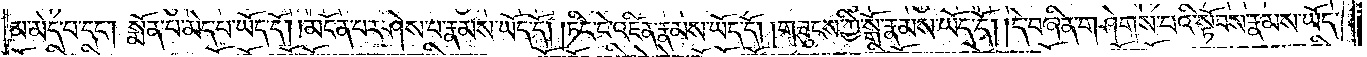མ་མེད་པ་དང༌། སྨོན་པ་མེད་པ་ཡོད་དོ། །མངོན་པར་ཤེས་པ་རྣམས་ཡོད་དོ། །ཏིང་ངེ་འཛིན་རྣམས་ཡོད་དོ། །གཟུངས་ཀྱི་སྒོ་རྣམས་ཡོད་དོ། །དེ་བཞིན་གཤེགས་པའི་སྟོབས་རྣམས་ཡོད་
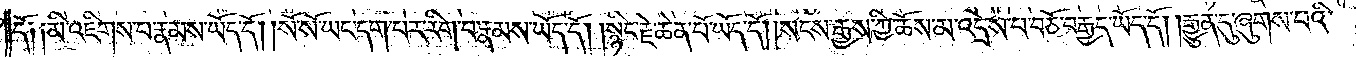དོ༑ ༑མི་འཇིགས་པ་རྣམས་ཡོད་དོ། །སོ་སོ་ཡང་དག་པར་རིག་པ་རྣམས་ཡོད་དོ། །སྙིང་རྗེ་ཆེན་པོ་ཡོད་དོ། །སངས་རྒྱས་ཀྱི་ཆོས་མ་འདྲེས་པ་བཅོ་བརྒྱད་ཡོད་དོ། །རྒྱུན་དུ་ཞུགས་པའི་
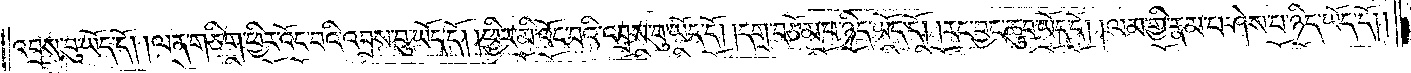འབྲས་བུ་ཡོད་དོ། །ལན་གཅིག་ཕྱིར་འོང་བའི་འབྲས་བུ་ཡོད་དོ། །ཕྱིར་མི་འོང་བའི་འབྲས་བུ་ཡོད་དོ། །དགྲ་བཅོམ་པ་ཉིད་ཡོད་དོ། །རང་བྱང་ཆུབ་ཡོད་དོ། །ལམ་གྱི་རྣམ་པར་ཤེས་པ་ཉིད་ཡོད་དོ། །
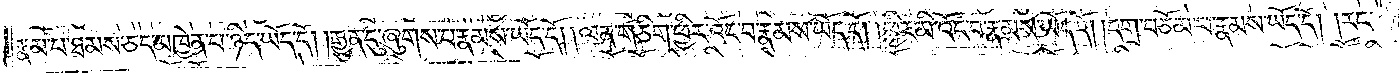རྣམ་པ་ཐམས་ཅད་མཁྱེན་པ་ཉིད་ཡོད་དོ། །རྒྱུན་དུ་ཞུགས་པ་རྣམས་ཡོད་དོ། །ལན་གཅིག་ཕྱིར་འོང་བ་རྣམས་ཡོད་དོ། །ཕྱིར་མི་འོང་བ་རྣམས་ཡོད་དོ། །དགྲ་བཅོམ་པ་རྣམས་ཡོད་དོ། །རང་
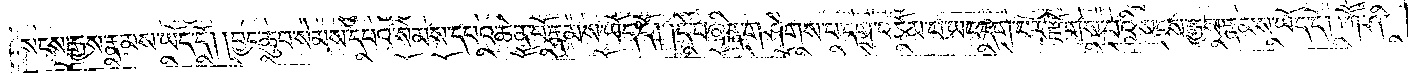སངས་རྒྱས་རྣམས་ཡོད་དོ། །བྱང་ཆུབ་སེམས་དཔའ་སེམས་དཔའ་ཆེན་པོ་རྣམས་ཡོད་དོ། །དེ་བཞིན་གཤེགས་པ་དགྲ་བཅོམ་པ་ཡང་དག་པར་རྫོགས་པའི་སངས་རྒྱས་རྣམས་ཡོད་དོ། །ཀཽ་ཤི་
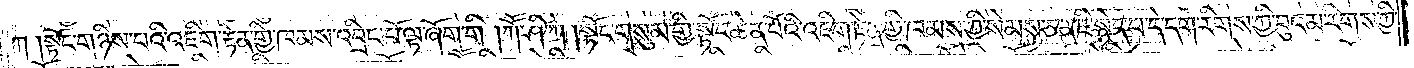ཀ །སྟོང་གཉིས་པའི་འཇིགས་རྟེན་གྱི་ཁམས་འབྲིང་པོ་ལྟ་ཞིག་གི །ཀཽ་ཤི་ཀ །སྟོང་གསུམ་གྱི་སྟོང་ཆེན་པོའི་འཇིག་རྟེན་གྱི་ཁམས་ཀྱི་སེམས་ཅན་ཇི་སྙེད་པ་དེ་དག་རིགས་ཀྱི་བུའམ་རིགས་ཀྱི་
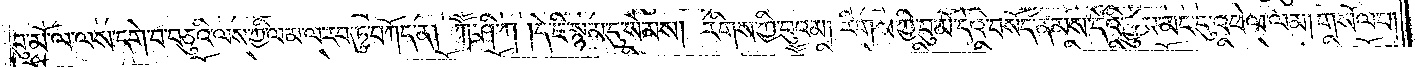བུ་མོ་ལ་ལས་དགེ་བ་བཅུའི་ལས་ཀྱི་ལམ་ལ་རབ་ཏུ་བཀོད་ན། ཀཽ་ཤི་ཀ །དེ་ཇི་སྙམ་དུ་སེམས། རིགས་ཀྱི་བུའམ། རིགས་ཀྱི་བུ་མོ་དེའི་བསོད་ནམས་དེའི་རྒྱུས་མང་དུ་འཕེལ་ལམ། གསལ་པ།
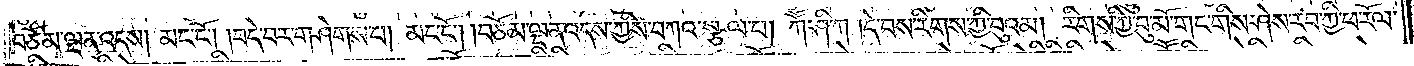བཅོམ་ལྡན་འདས། མང་ངོ༌། །བདེ་བར་གཤེགས་པ། མང་ངོ༌། །བཅོམ་ལྡན་འདས་ཀྱིས་བཀའ་སྩལ་པ། ཀཽ་ཤི་ཀ །དེ་བས་རིགས་ཀྱི་བུའམ། རིགས་ཀྱི་བུ་མོ་གང་གིས་ཤེས་རབ་ཀྱི་ཕ་རོལ་
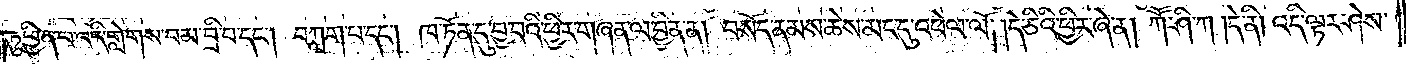ཏུ་ཕྱིན་པ་འདི་གླེགས་བམ་བྲི་བ་དང༌། བཀླག་པ་དང༌། ཁ་ཏོན་དུ་བྱ་བའི་ཕྱིར་གཞན་ལ་བྱིན་ན། བསོད་ནམས་ཆེས་མང་དུ་འཕེལ་ལོ། །དེ་ཅིའི་ཕྱིར་ཞེ་ན། ཀཽ་ཤི་ཀ །དེ་ནི། འདི་ལྟར་ཤེས་
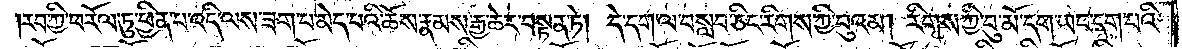རབ་ཀྱི་ཕ་རོལ་ཏུ་ཕྱིན་པ་འདི་ལས་ཟག་པ་མེད་པའི་ཆོས་རྣམས་རྒྱ་ཆེར་བསྟན་ཏེ། དེ་དག་ལ་བསླབ་ཅིང་རིགས་ཀྱི་བུའམ། རིགས་ཀྱི་བུ་མོ་དག་ཡང་དག་པའི་
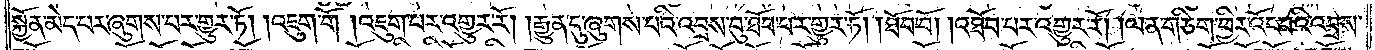སྐྱོན་མེད་པར་ཞུགས་པར་གྱུར་ཏོ། །འཇུག་གོ །འཇུག་པར་འགྱུར་རོ། །རྒྱུན་དུ་ཞུགས་པའི་འབྲས་བུ་ཐོབ་པར་གྱུར་ཏོ། །ཐོབ་བོ། །འཐོབ་པར་འགྱུར་རོ། །ལན་གཅིག་ཕྱིར་འོང་བའི་འབྲས་
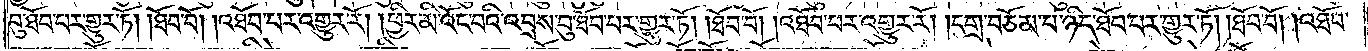བུ་ཐོབ་པར་གྱུར་ཏོ། །ཐོབ་བོ། འཐོབ་པར་འགྱུར་རོ། །ཕྱིར་མི་འོང་བའི་འབྲས་བུ་ཐོབ་པར་གྱུར་ཏོ། །ཐོབ་བོ། འཐོབ་པར་འགྱུར་རོ། །དགྲ་བཅོམ་པ་ཉིད་ཐོབ་པར་གྱུར་ཏོ། །ཐོབ་བོ། །འཐོབ་
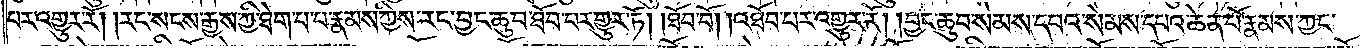པར་འགྱུར་རོ། །རང་སངས་རྒྱས་ཀྱི་ཐེག་པ་པ་རྣམས་ཀྱིས་རང་བྱང་ཆུབ་ཐོབ་པར་གྱུར་ཏོ། །ཐོབ་བོ། །འཐོབ་པར་འགྱུར་རོ། །བྱང་ཆུབ་སེམས་དཔའ་སེམས་དཔའ་ཆེན་པོ་རྣམས་ཀྱང་
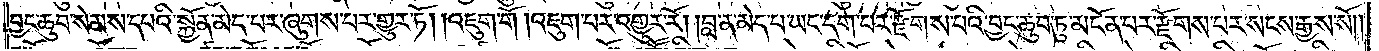བྱང་ཆུབ་སེམས་དཔའི་སྐྱོན་མེད་པར་ཞུགས་པར་གྱུར་ཏོ། །འཇུག་གོ །འཇུག་པར་འགྱུར་རོ། །བླ་ན་མེད་པ་ཡང་དག་པར་རྫོགས་པའི་བྱང་ཆུབ་ཏུ་མངོན་པར་རྫོགས་པར་སངས་རྒྱས་སོ༎
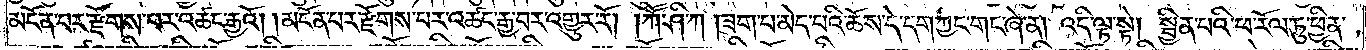མངོན་པར་རྫོགས་པར་འཚང་རྒྱའོ། །མངོན་པར་རྫོགས་པར་འཚང་རྒྱ་བར་འགྱུར་རོ། །ཀཽ་ཤི་ཀ །ཟག་པ་མེད་པའི་ཆོས་དེ་དག་ཀྱང་གང་ཞེ་ན། འདི་ལྟ་སྟེ། སྦྱིན་པའི་ཕ་རོལ་ཏུ་ཕྱིན་
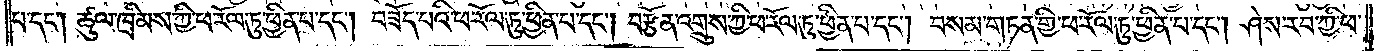པ་དང༌། ཚུལ་ཁྲིམས་ཀྱི་ཕ་རོལ་ཏུ་ཕྱིན་པ་དང༌། བཟོད་པའི་ཕ་རོལ་ཏུ་ཕྱིན་པ་དང༌། བརྩོན་འགྲུས་ཀྱི་ཕ་རོལ་ཏུ་ཕྱིན་པ་དང༌། བསམ་གཏན་གྱི་ཕ་རོལ་ཏུ་ཕྱིན་པ་དང༌། ཤེས་རབ་ཀྱི་ཕ་
